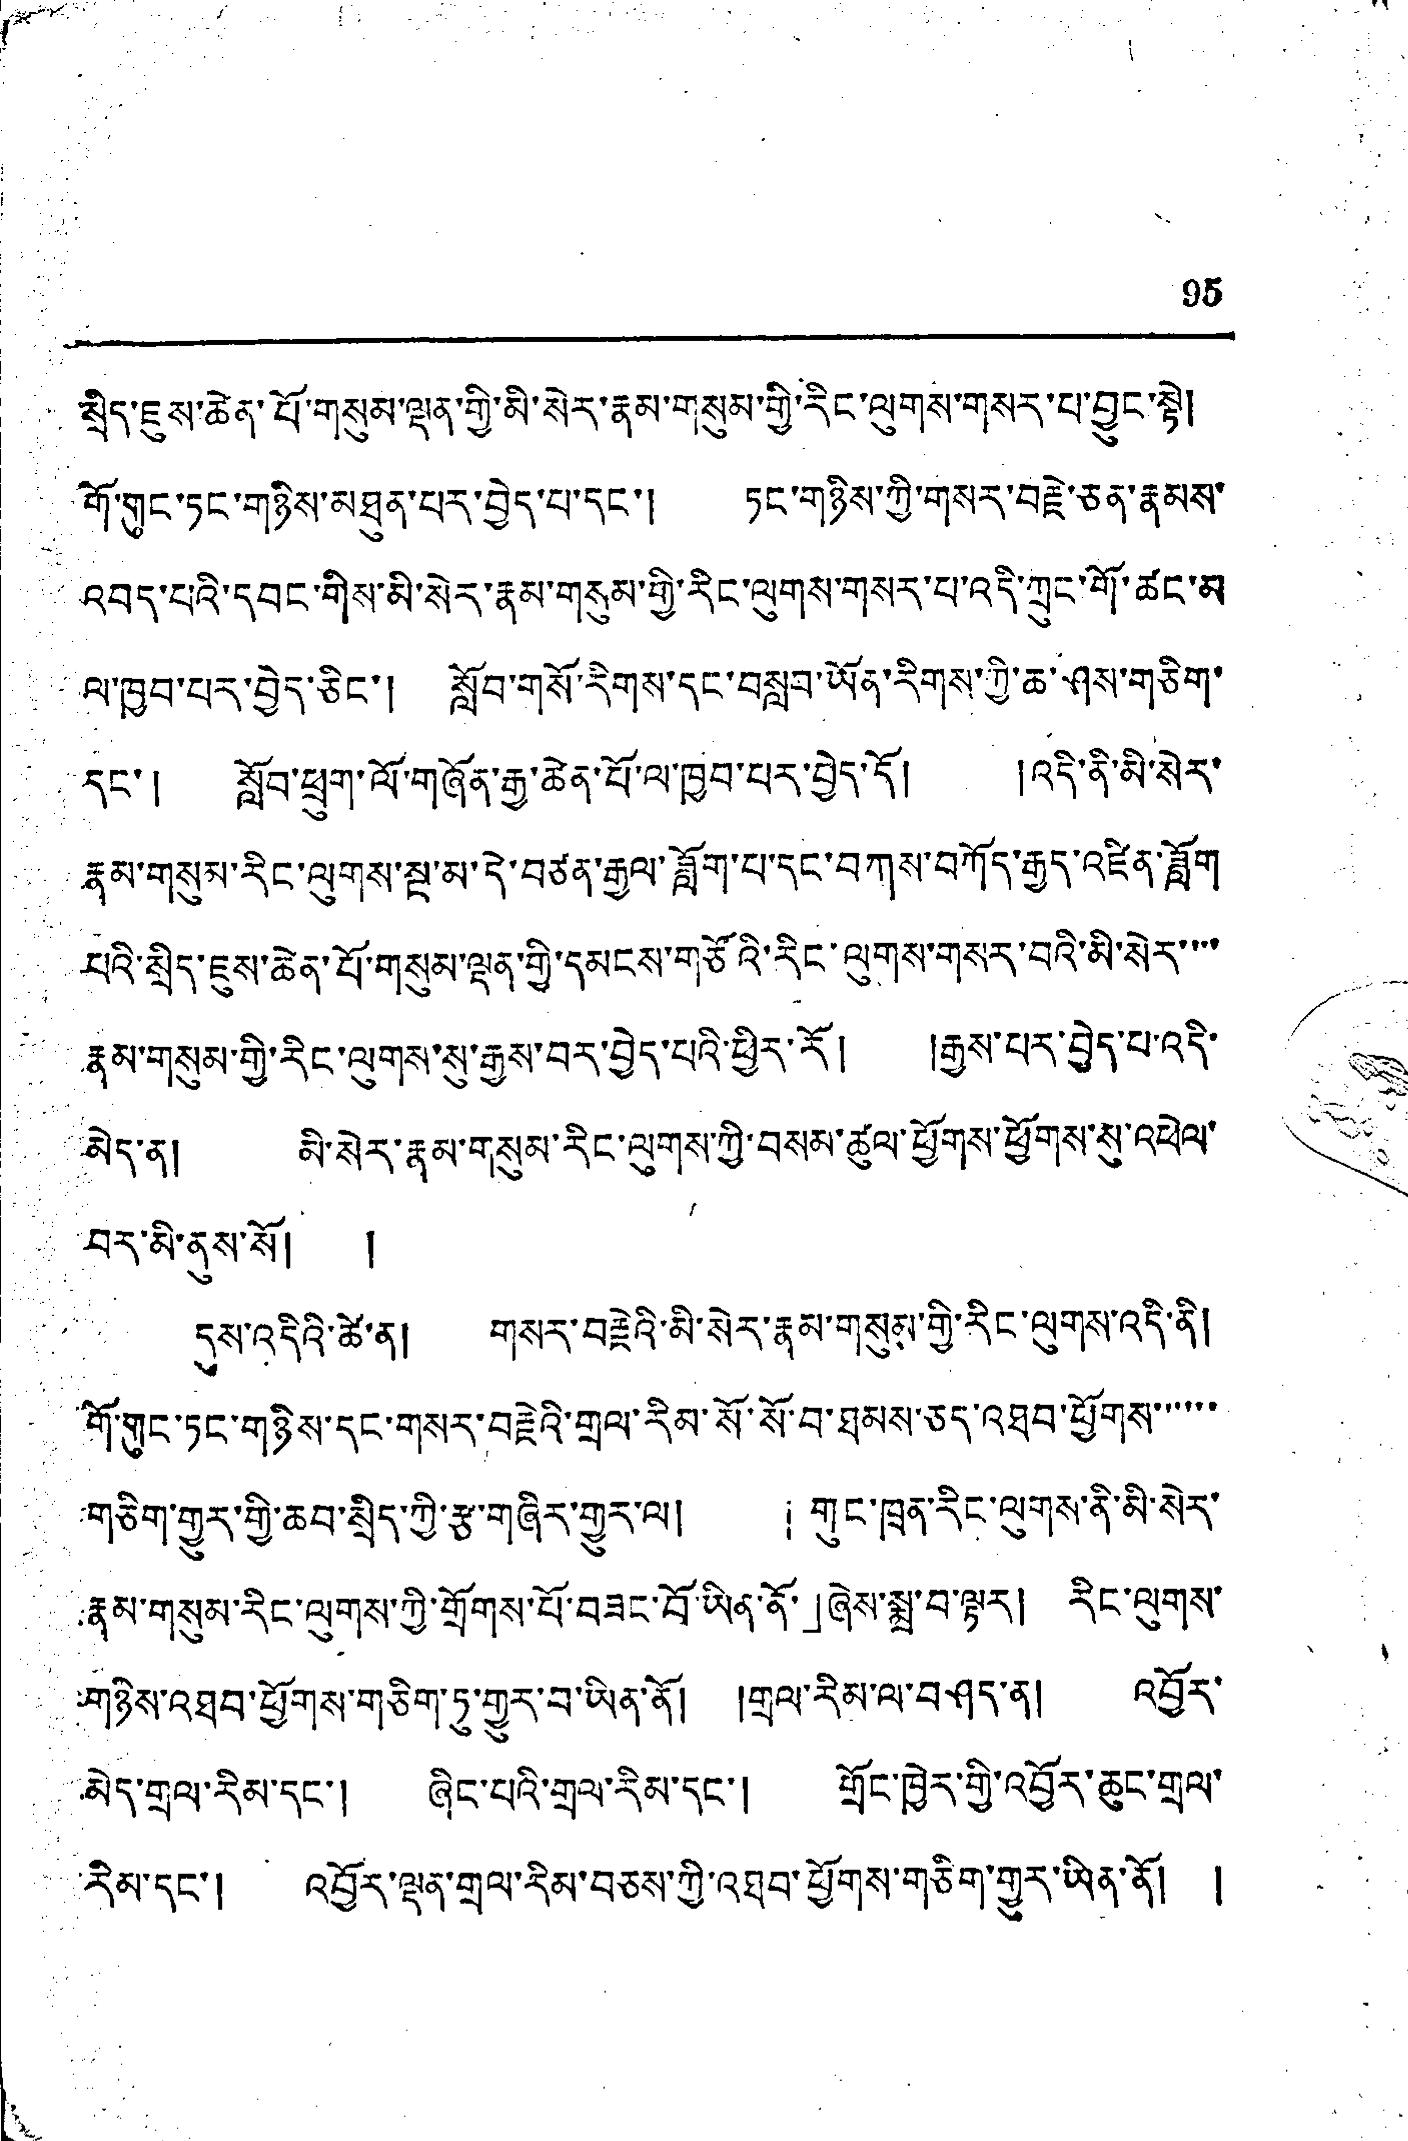95
སྲིད་ཇུས་ཆེན་པོ་གསུམ་ལྡན་གྱི་མི་སེར་རྣམ་གསུམ་གྱི་རིང་ལུགས་གསར་པ་བྱུང་སྟེ།
གོ་གུང་ཏང་གཉིས་མཐུན་པར་བྱེད་པ་དང་། ཏང་གཉིས་ཀྱི་གསར་བརྗེ་ཅན་རྣམས་
འབད་པའི་དབང་གིས་མི་སེར་རྣམ་གརུམ་གྱི་རིང་ལུགས་གསར་པ་འདི་ཀྲུང་གོ་ཚང་མ་
ལ་ཁྱབ་པར་བྱེད་ཅིང་། སློབ་གསོ་རིགས་དང་བསླབ་ཡོན་རིགས་ཀྱི་ཆ་ཤས་གཅིག་
དང་། སློབ་ཕྲུག་ལོ་གཞོན་རྒྱ་ཆེན་པོ་ལ་ཁྱབ་པར་བྱེད་དོ། །འདི་ནི་མི་སེར་
རྣམ་གསུམ་རིང་ལུགས་སྔ་མ་དེ་བཙན་རྒྱལ་ཟློག་པ་དང་བཀས་བཀོད་རྒྱུད་འཛིན་ཟློག
པའི་སྲིད་ཇུས་ཆེན་པོ་གསུམ་ལྡན་གྱི་དམངས་གཙོའི་རིང་ལུགས་གསར་བའི་མི་སེར་་་་
རྣམ་གསུམ་གྱི་རིང་ལུགས་སུ་རྒྱས་བར་བྱེད་པའི་ཕྱིར་རོ། །རྒྱས་པར་བྱེད་པ་འདི་
མེད་ན། མི་སེར་རྣམ་གསུམ་རིང་ལུགས་ཀྱི་བསམ་ཚུལ་ཕྱོགས་ཕྱོགས་སུ་འཕེལ་
བར་མི་ནུས་སོ། །
དུས་འདིའི་ཚེ་ན། གསར་བརྗེའི་མི་སེར་རྣམ་གསུམ་གྱི་རིང་ལུགས་འདི་ནི།
གོ་གུང་ཏང་གཉིས་དང་གསར་བརྗེའི་གྲལ་རིམ་སོ་སོ་བ་ཐམས་ཅད་འཐབ་ཕྱོགས་་་་་་་
གཅིག་གྱུར་གྱི་ཆབ་སྲིད་ཀྱི་རྩ་གཞིར་གྱུར་ལ། 「གུང་ཁྲན་རིང་ལུགས་ནི་མི་སེར་
རྣམ་གསུམ་རིང་ལུགས་ཀྱི་གྲོགས་པོ་བཟང་བོ་ཡིན་ནོ་」ཞེས་སྨྲ་བ་ལྟར། རིང་ལུགས་
གཉིས་འཐབ་ཕྱོགས་གཅིག་ཏུ་གྱུར་བ་ཡིན་ནོ། །གྲལ་རིམ་ལ་བཤད་ན། འབྱོར་
མེད་གྲལ་རིམ་དང་། ཞིང་པའི་གྲལ་རིམ་དང་། གྲོང་ཁྱེར་གྱི་འབྱོར་ཆུང་གྲལ་
རིམ་དང་། འབྱོར་ལྡན་གྲལ་རིམ་བཅས་ཀྱི་འཐབ་ཕྱོགས་གཅིག་གྱུར་ཡིན་ནོ། །
